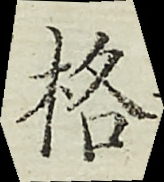格
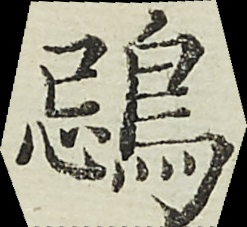鵋
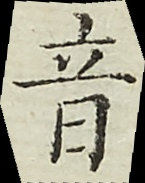音
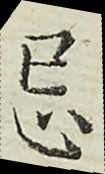忌
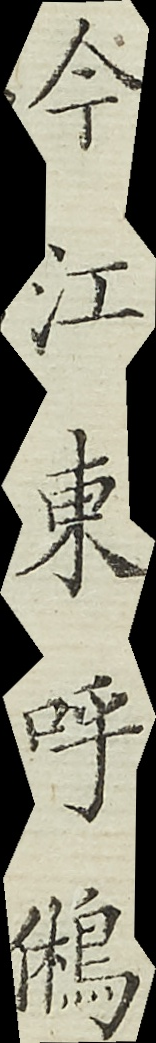今江東呼鵂
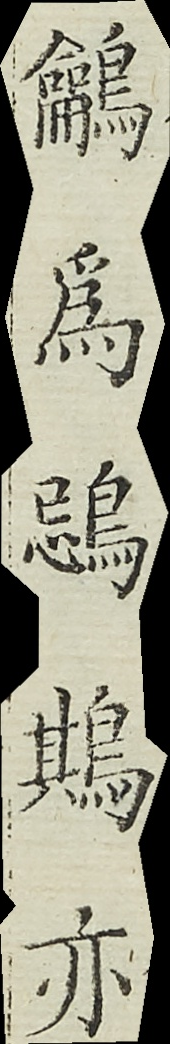鸙為鵋鶀亦
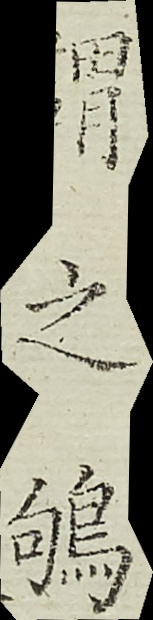謂之鴝
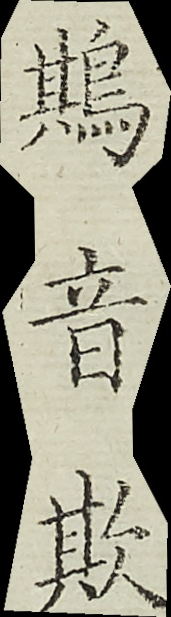鶀音欺
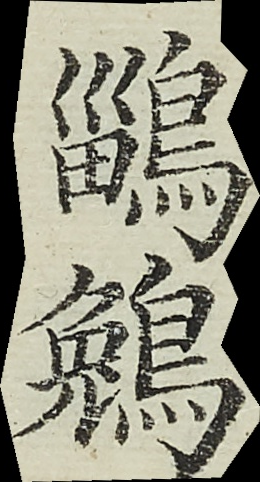鶅鵵
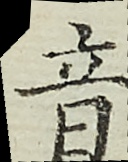音
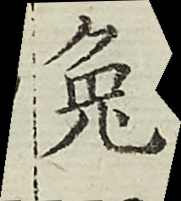兔
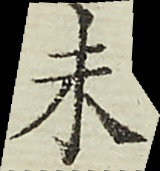未
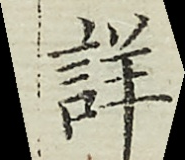詳
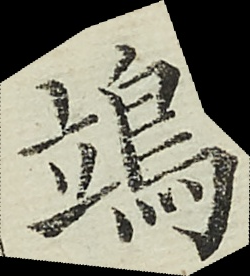鴗
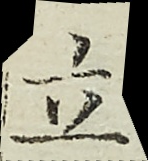立
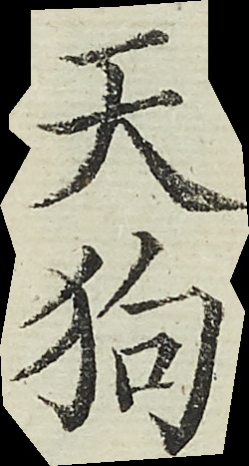天狗
